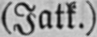(Jatk.).
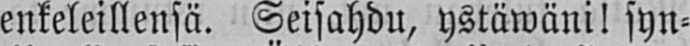enkeleillensä. Seisahdu, ystäwäni! syn-
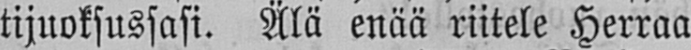tijuoksussasi. Älä enää riitele Herraa
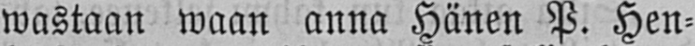wastaan waan anna Hänen P. Hen-
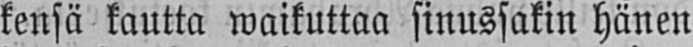kensä kautta waikuttaa sinussakin hänen
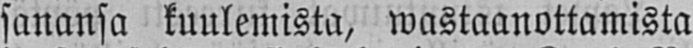sanansa kuulemista, wastaanottamista
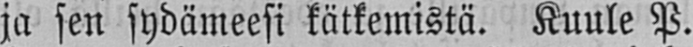ja sen sydämeesi kätkemistä. Kuule P.
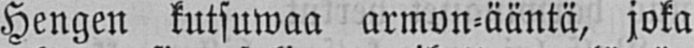Hengen kutsuwaa armon-ääntä, joka
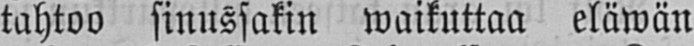tahtoo sinussakin waikuttaa eläwän
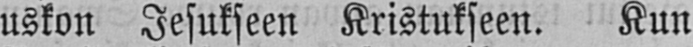uskon Jesukseen Kristukseen. Kun
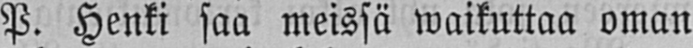P. Henki saa meissä waikuttaa oman
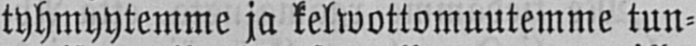tyhmyytemme ja kelwottomuutemme tun-
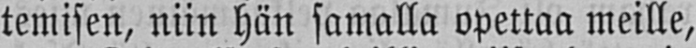temisen, niin hän samalla opettaa meille,
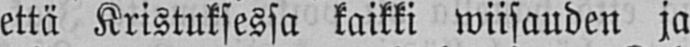että Kristuksessa kaikki wiisauden ja
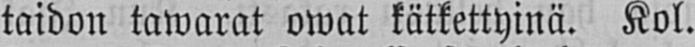taidon tawarat owat kätkettyinä. Kol.
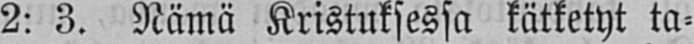2: 3. Nämä Kristuksessa kätketyt ta-
